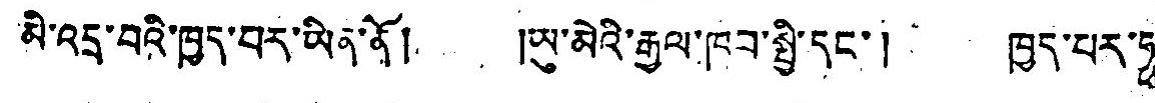མི་འདྲ་བའི་ཁྱད་བར་ཡིན་ནོ། །ཡུ་མེའི་རྒྱལ་ཁབ་སྤྱི་དང་། ཁྱད་པར་ཧྥ་
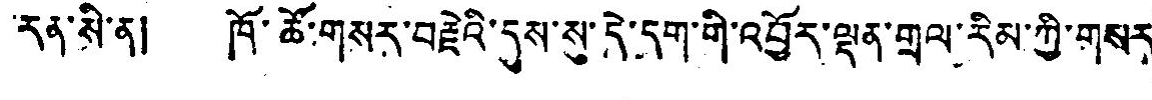རན་སི་ན། ཁོ་ཚོ་གསར་བརྗེའི་དུས་སུ་དེ་དག་གི་འབྱོར་ལྡན་གྲལ་རིམ་ཀྱི་གསར་
